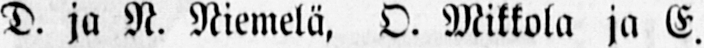D. ja N. Niemelä, O. Mikkola ja E.
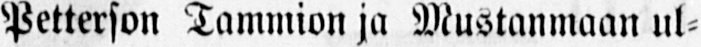Petterson Tammion ja Mustanmaan ul-
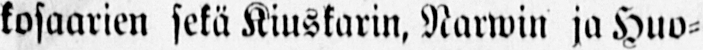kosaarien sekä Kiuskarin, Narwin ja Huo-
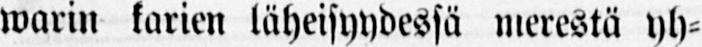warin karien läheisyydessä merestä yh-
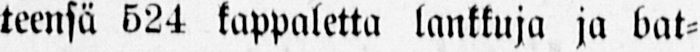teensä 524 kappaletta lankkuja ja bat-
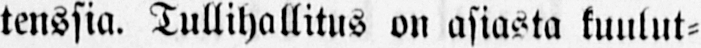tenssia. Tullihallitus on asiasta kuulut-
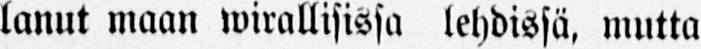lanut maan wirallisissa lehdissä, mutta
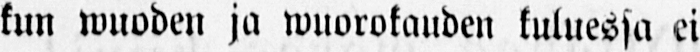kun wuoden ja wuorokauden kuluessa ei
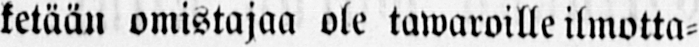ketään omistajaa ole tawaroille ilmotta-
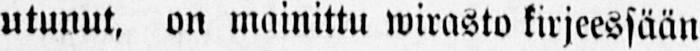utunut, on mainittu wirasto kirjeessään
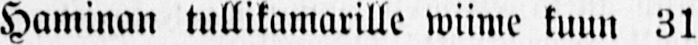Haminan tullikamarille wiime kuun 31
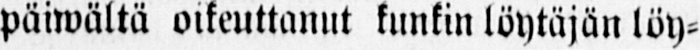päiwältä oikeuttanut kunkin löytäjän löy-
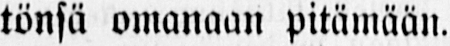tönsä omanaan pitämään.
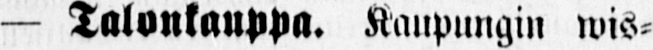— Talonkauppa. Kaupungin wis-
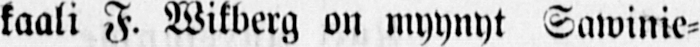kaali F. Wikberg on myynyt Sawinie-
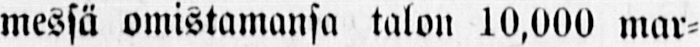messä omistamansa talon 10,000 mar-
